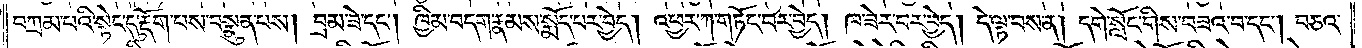བཀྲམ་པའི་སྟེང་དུ་རྡོག་པས་བསྣུན་པས། བྲམ་ཟེ་དང༌། ཁྱིམ་བདག་རྣམས་སྨོད་པར་བྱེད། འཕྱར་ཀ་གཏོང་བར་བྱེད། ཁ་ཟེར་བར་བྱེད། དེ་ལྟ་བས་ན། དགེ་སློང་གིས་བཟའ་བ་དང༌། བཅའ་
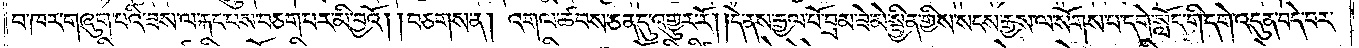བ་ཁར་གཞུག་པའི་ཟས་ལ་རྐང་པས་བཅག་པར་མི་བྱའོ། །བཅགས་ན། འགལ་ཚབས་ཅན་དུ་འགྱུར་རོ། །དེ་ནས་རྒྱལ་པོ་བྲམ་ཟེ་མེ་སྦྱིན་གྱིས་སངས་རྒྱས་ལ་སོགས་པ་དགེ་སློང་གི་དགེ་འདུན་བདེ་བར་
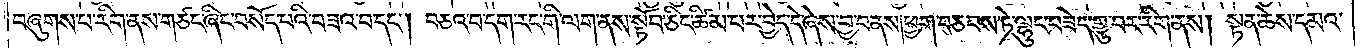བཞུགས་པ་རིག་ནས་གཙང་ཞིང་བསོད་པའི་བཟའ་བ་དང༌། བཅའ་བ་དག་རང་གི་ལག་ནས་སྟོབ་ཅིང་ཚིམ་པར་བྱེད་དེ་ཞེས་བྱ་བ་ནས་ཕྱག་བཅབས་ཏེ་ལྷུང་བཟེད་གྱུ་བར་རིག་ནས། སྟན་ཆེས་དམའ་
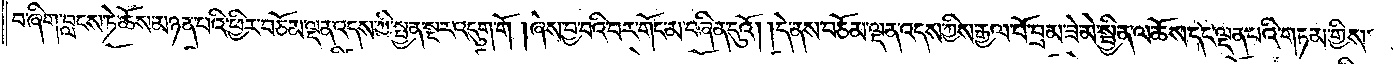བ་ཞིག་བླངས་ཏེ་ཆོས་མཉན་པའི་ཕྱིར་བཅོམ་ལྡན་འདས་ཀྱི་སྤྱན་སྔར་འདུག་གོ །ཞེས་བྱ་བའི་བར་གོང་མ་བཞིན་དུའོ། །དེ་ནས་བཅོམ་ལྡན་འདས་ཀྱིས་རྒྱལ་པོ་བྲམ་ཟེ་མེ་སྦྱིན་ལ་ཆོས་དང་ལྡན་པའི་གཏམ་གྱིས་
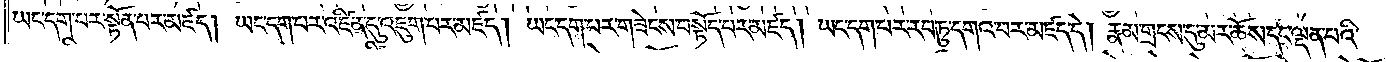ཡང་དག་པར་སྟོན་པར་མཛད། ཡང་དག་པར་འཛིན་དུ་འཇུག་པར་མཛད། ཡང་དག་པར་གཟེངས་བསྟོད་པར་མཛད། ཡང་དག་པར་རབ་ཏུ་དགའ་བར་མཛད་དེ། རྣམ་གྲངས་དུ་མར་ཆོས་དང་ལྡན་པའི་
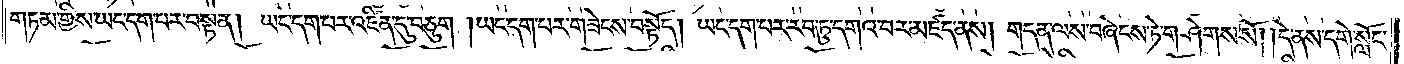གཏམ་གྱིས་ཡང་དག་པར་བསྟན། ཡང་དག་པར་འཛིན་དུ་བཅུག །ཡང་དག་པར་གཟེངས་བསྟོད། ཡང་དག་པར་རབ་ཏུ་དགའ་བར་མཛད་ནས། གདན་ལས་བཞེངས་ཏེ་གཤེགས་སོ། །དེ་ནས་དགེ་སློང་
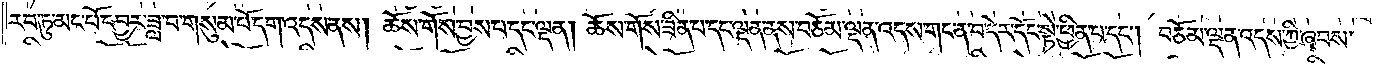རབ་ཏུ་མང་པོ་དབྱར་ཟླ་བ་གསུམ་པོ་དག་འདས་ནས། ཆོས་གོས་བྱས་པ་དང་ལྡན། ཆོས་གོས་ཟིན་པ་དང་ལྡན་ནས་བཅོམ་ལྡན་འདས་གང་ན་བ་དེར་དོང་སྟེ་ཕྱིན་པ་དང༌། བཅོམ་ལྡན་འདས་ཀྱི་ཞབས་
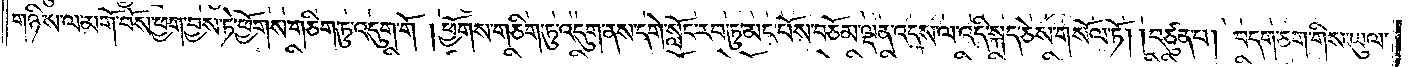གཉིས་ལ་མགོ་བོས་ཕྱག་བྱས་ཏེ་ཕྱོགས་གཅིག་ཏུ་འདུག་གོ །ཕྱོགས་གཅིག་ཏུ་འདུག་ནས་དགེ་སློང་རབ་ཏུ་མང་པོས་བཅོམ་ལྡན་འདས་ལ་འདི་སྐད་ཅེས་གསོལ་ཏོ། །བཙུན་པ། བདག་ཅག་གིས་ཡུལ་
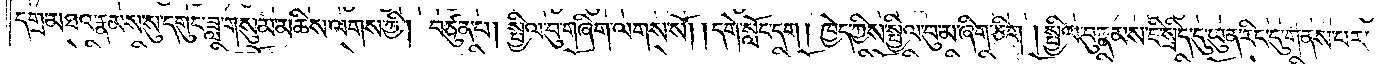དགྲ་མཐའ་རྣམས་སུ་དགུང་ཟླ་གསུམ་མཆིས་ལགས་ཀྱི། བཙུན་པ། སྤྱིལ་བུ་གཞིག་ལགས་སོ། །དགེ་སློང་དག། ཁྱེད་ཀྱིས་སྤྱིལ་བུ་མ་ཞིག་ཅི་། སྤྱིལ་བུ་རྣམས་ཇི་སྲིད་དུ་ཡུན་རིང་དུ་གནས་པར་
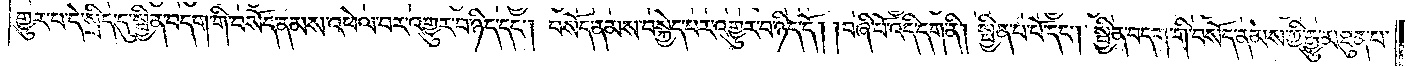གྱུར་པ་དེ་སྲིད་དུ་སྦྱིན་བདག་གི་བསོད་ནམས་འཕེལ་བར་འགྱུར་བ་ཉིད་དང༌། བསོད་ནམས་བསྐྱེད་པར་འགྱུར་བ་ཉིད་དོ། །བཞི་པོ་འདི་དག་ནི། སྦྱིན་པ་པོ་དང༌། སྦྱིན་བདག་གི་བསོད་ནམས་ཀྱི་རྒྱུ་མཐུན་པ་
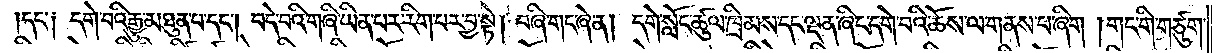།དང་༑ དགེ་བའི་རྒྱུ་མཐུན་པ་དང༌། བདེ་བའི་གཞི་ཡིན་པར་རིག་པར་བྱ་སྟེ། བཞི་གང་ཞེ་ན། དགེ་སློང་ཚུལ་ཁྲིམས་དང་ལྡན་ཞིང་དགེ་བའི་ཆོས་ལ་གནས་པ་ཞིག །གང་གི་གཙུག་
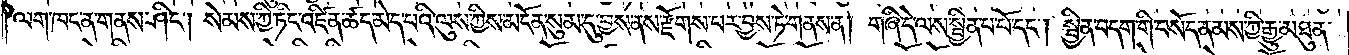ལག་ཁང་ན་གནས་ཤིང༌། སེམས་ཀྱི་ཏིང་འཛིན་ཚད་མེད་པའི་ལུས་ཀྱིས་མངོན་སུམ་དུ་བྱས་ནས་རྫོགས་པར་བྱས་ཏེ་གནས་ན། གཞི་དེ་ལས་སྦྱིན་པ་པོ་དང༌། སྦྱིན་བདག་གི་བསོད་ནམས་ཀྱི་རྒྱུ་མཐུན་
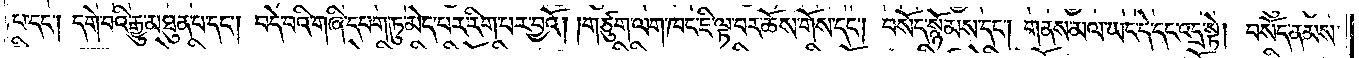པ་དང༌། དགེ་བའི་རྒྱུ་མཐུན་པ་དང༌། བདེ་བའི་གཞི་དཔག་ཏུ་མེད་པར་རིག་པར་བྱའོ། །གཙུག་ལག་ཁང་ཇི་ལྟ་བར་ཆོས་གོས་དང༌། བསོད་སྙོམས་དང༌། གནས་མལ་ཡང་དེ་དང་འདྲ་སྟེ། བསོད་ནམས་
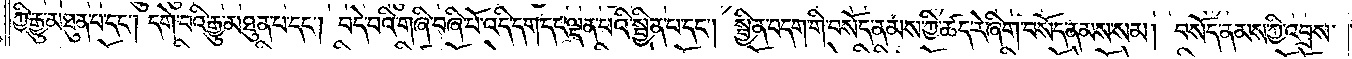ཀྱི་རྒྱུ་མཐུན་པ་དང༌། དགེ་བའི་རྒྱུ་མཐུན་པ་དང༌། བདེ་བའི་གཞི་བཞི་པོ་འདི་དག་དང་ལྡན་པའི་སྦྱིན་པ་དང༌། སྦྱིན་བདག་གི་བསོད་ནམས་ཀྱི་ཚད་རེ་ཞིག་བསོད་ནམས་སམ། བསོད་ནམས་ཀྱི་འབྲས་
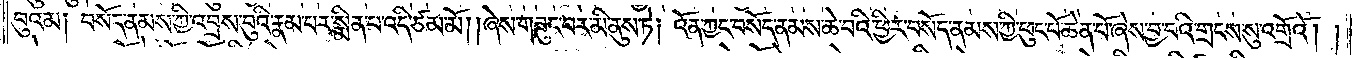བུའམ། བསོད་ནམས་ཀྱི་འབྲས་བུའི་རྣམ་པར་སྨིན་པ་འདི་ཙམ་མོ། །ཞེས་གཟུང་བར་མི་ནུས་ཏེ། འོན་ཀྱང་བསོད་ནམས་ཆེ་བའི་ཕྱིར་བསོད་ནམས་ཀྱི་ཕུང་པོ་ཆེན་པོ་ཞེས་བྱ་བའི་གྲངས་སུ་འགྲོའོ། །
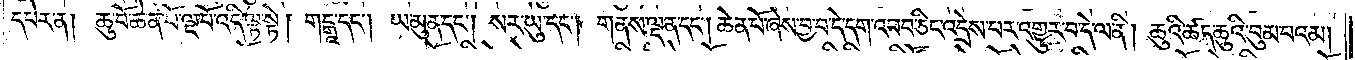དཔེར་ན། ཆུ་བོ་ཆེན་པོ་ལྔ་པོ་འདི་ལྟ་སྟེ། གངྒཱ་དང༌། ཡ་མུ་ན་དང༌། སར་ཡུ་དང༌། གནས་ལྡན་དང༌། ཆེན་པོ་ཞེས་བྱ་བ་དེ་དག་འབབ་ཅིང་འདྲེས་པར་འགྱུར་བ་དེ་ལ་ནི། ཆུའི་ཚད་ཆུའི་བུམ་པའམ།
